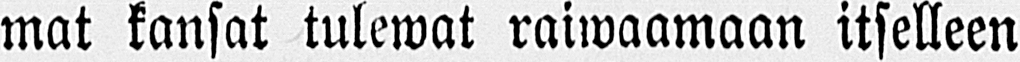mat kansat tulewat raiwaamaan itselleen
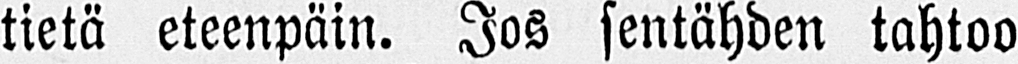tietä eteenpäin. Jos sentähden tahtoo
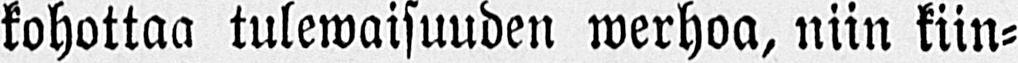kohottaa tulewaisuuden werhoa, niin kiin-
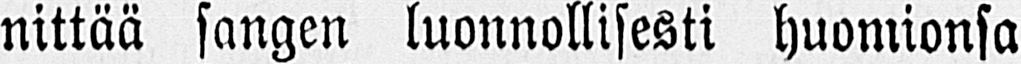nittää sangen luonnollisesti huomionsa
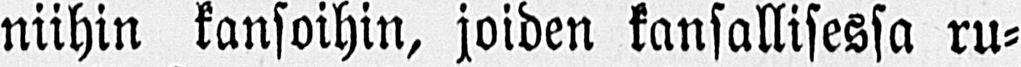niihin kansoihin, joiden kansallisessa ru-
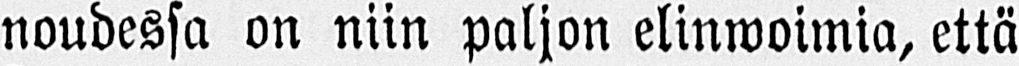noudessa on niin paljon elinwoimia, että
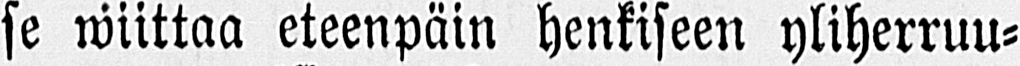se wiittaa eteenpäin henkiseen yliherruu-
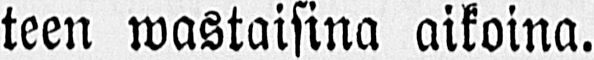teen wastaisina aikoina.
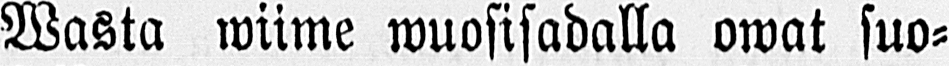Wasta wiime wuosisadalla owat suo-
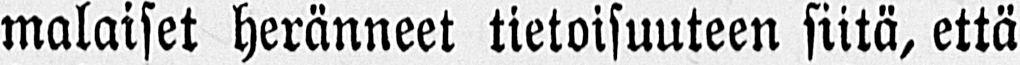malaiset heränneet tietoisuuteen siitä, että
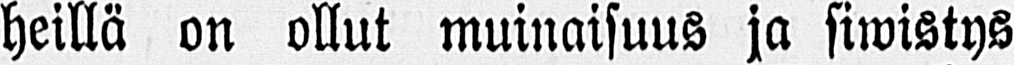heillä on ollut muinaisuus ja siwistys
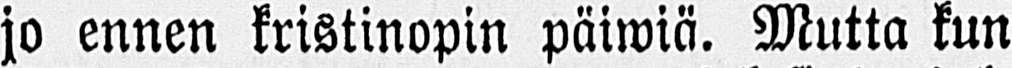jo ennen kristinopin päiwiä. Mutta kun
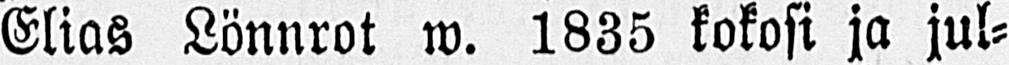Elias Lönnrot w. 1835 kokosi ja jul-
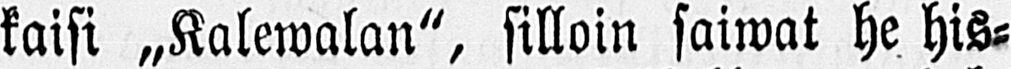kaisi „Kalewalan", silloin saiwat he his-
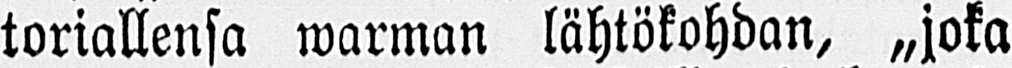toriallensa warman lähtökohdan, „joka
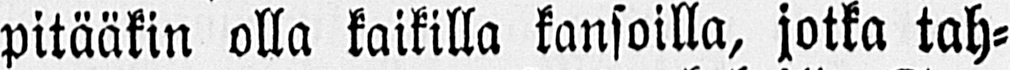pitääkin olla kaikilla kansoilla, jotka tah-
